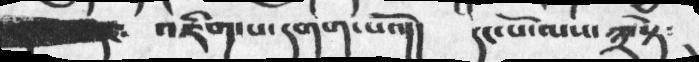འཇིག་པ་དགག་པའོ།།   དང་པོ་ལས་༣་སྟེ་
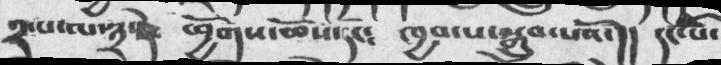༢་པ་ལ་༣་སྟེ༴  ཕྱོགས་ཆོས་དང༴   ཁྱབ་པ་སྒྲུབ་པའོ་།།  དང་པོ་
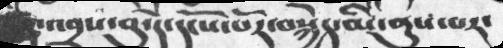འབྲས་བུ་དེ་དངོས་པོར་བསྐྱེད་མ་ནུས་པར་
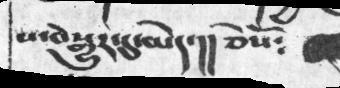ས་བསྒྱུར་དུ་མེད་།།  ཅེསོ༴
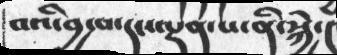བའི་བྱ་བ་དང་ལྡན་པ་ནི་སྐྱེ་།
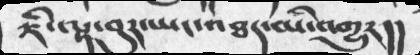ཇི་ལྟར་བུར་ཡང་འཐད་མི་འགྱུར།།
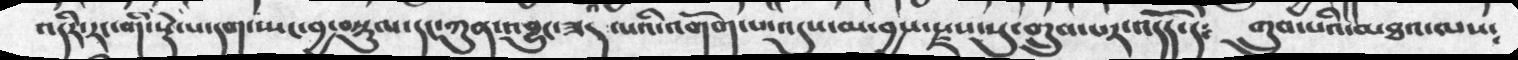འདིར་རང་གི་སྡེ་པ་དག་སྤང་བྱ་བསྟུལ་དང་ཀུན་་འབྱུང་ཟད་པའི་འགོག་པ་འདུས་མ་བྱས་རྫས་སུ་གྲུབ་པར་འདོད་དེ༴    གྲུབ་པའི་མཐའ་ལས༴
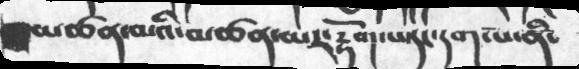མཚན་མའི་མཚན་མར་རྟོག་པ་དང་དག་པ་ནི་
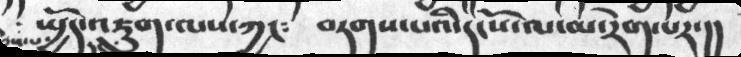སྤྱོད་འཇུག་ལས་ཀྱང༴    བཏགས་པའི་དངོས་ལ་མ་རེག་པར་།།
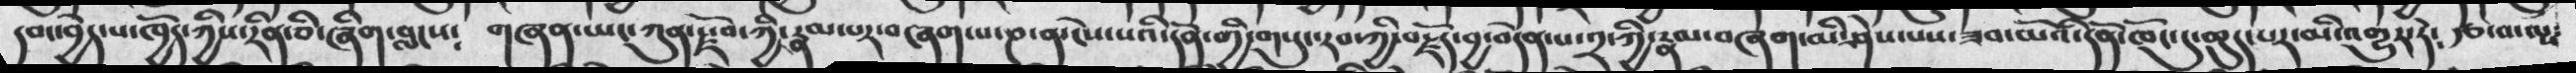དབང་བྱེད་པ་ཁྱོད་ཀྱིས་རིན་ཅི་ཞིག་བླངས༴   གཞན་ཡང་ཀུན་རྫོབ་ཀྱི་རྣམ་པར་བཞག་པ་ཎ་ན་ངེས་པའི་དོན་གྱི་གསུང་རབ་ཀྱི་བརྗོད་བྱ་བདེན་པ་༢་ཀྱི་རྣམ་བཞག་མི་ཤེས་པས་ཟབ་མོའི་དོན་ཁོང་དུ་ཆུད་པར་མི་འགྱུར་ཏེ༴   རྩ་བ་ལས༴
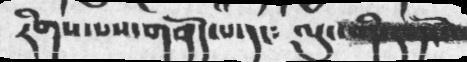རིགས་པས་གནོད་པ་དང༴  ལུང་གི་དགོངས་
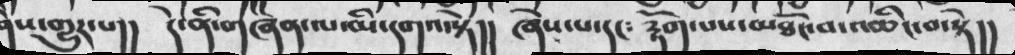ནས་གྱུར་པ།།   དེ་ནི་གཞན་ལ་མི་དགའ་སྟེ།།  ཞེས་པ་དང༴  རྟོག་པས་མཐོང་བ་འཆིང་བ་སྟེ།།
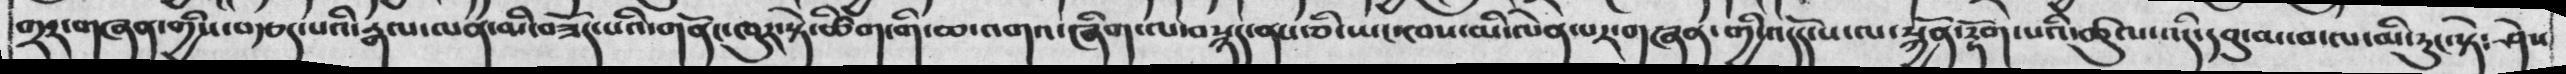གྲར་གཞན་གྱིས་བརྩད་པའི་རྒལ་ལན་མི་བཟོད་པའི་གནོང་ཁུར་སྟེ་ཚིག་གི་ཆ་འགའ་ཞིག་ལ་བསྙད་ནས་ཅི་ཡང་ཁས་མི་ལེན་པར་གཞན་གྱི་འདོད་པ་ལ་སྐྱོན་རྟོག་པའི་ཚུལ་འདི་དབུ་མ་བ་ལ་མི་རུང་སྟེ༴   ཤེས
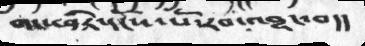གང་ཕྱིར་དངོས་པོ་རབ་འབྱུང་པ།།
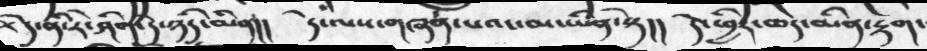+དེ་ནི་རེ་ཤིག་དེ་ཉིད་མིན།།   དེ་ལས་གཞན་པའང་མ་ཡིན་སྟེ།།  དེ་ཕྱིར་ཆད་མིན་རྟག་
